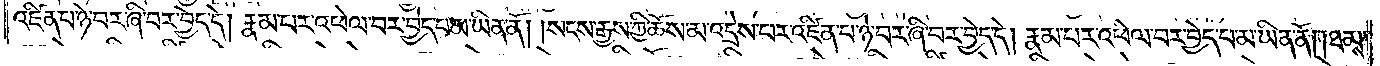འཛིན་པ་ཉེ་བར་ཞི་བར་བྱེད་དེ། རྣམ་པར་འཕེལ་བར་བྱེད་པ་མ་ཡིན་ནོ། །སངས་རྒྱས་ཀྱི་ཆོས་མ་འདྲེས་པར་འཛིན་པ་ཉེ་བར་ཞི་བར་བྱེད་དེ། རྣམ་པར་འཕེལ་བར་བྱེད་པ་མ་ཡིན་ནོ། །ཐམས་
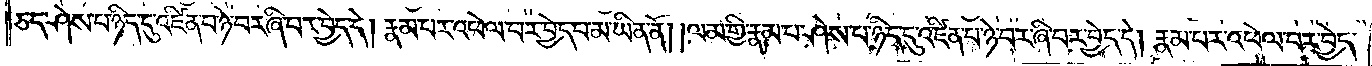ཅད་ཤེས་པ་ཉིད་དུ་འཛིན་པ་ཉེ་བར་ཞི་བར་བྱེད་དེ། རྣམ་པར་འཕེལ་བར་བྱེད་པ་མ་ཡིན་ནོ། །ལམ་གྱི་རྣམ་པ་ཤེས་པ་ཉིད་དུ་འཛིན་པ་ཉེ་བར་ཞི་བར་བྱེད་དེ། རྣམ་པར་འཕེལ་བར་བྱེད་
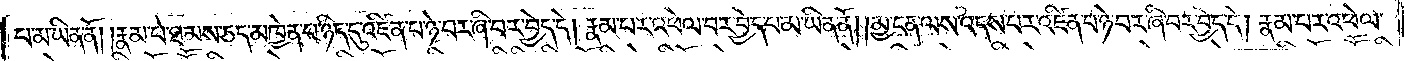པ་མ་ཡིན་ནོ། །རྣམ་པ་ཐམས་ཅད་མཁྱེན་པ་ཉིད་དུ་འཛིན་པ་ཉེ་བར་ཞི་བར་བྱེད་དེ། རྣམ་པར་འཕེལ་བར་བྱེད་པ་མ་ཡིན་ནོ། །མྱ་ངན་ལས་འདས་པར་འཛིན་པ་ཉེ་བར་ཞི་བར་བྱེད་དེ། རྣམ་པར་འཕེལ་
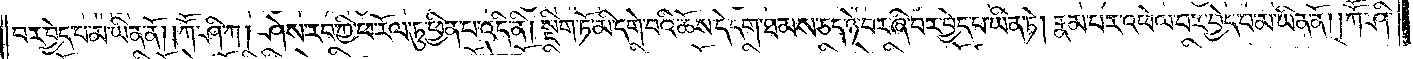བར་བྱེད་པ་མ་ཡིན་ནོ། །ཀཽ་ཤི་ཀ། ཤེས་རབ་ཀྱི་ཕ་རོལ་ཏུ་ཕྱིན་པ་འདི་ནི། སྡིག་ཏོ་མི་དགེ་བའི་ཆོས་དེ་དག་ཐམས་ཅད་ཉེ་བར་ཞི་བར་བྱེད་པ་ཡིན་ཏེ། རྣམ་པར་འཕེལ་བར་བྱེད་པ་མ་ཡིན་ནོ། །ཀཽ་ཤི་
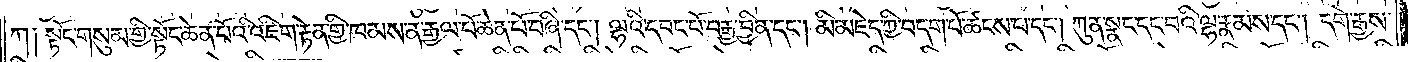ཀ། སྟོང་གསུམ་གྱི་སྟོང་ཆེན་པོའི་འཇིག་རྟེན་གྱི་ཁམས་ན་རྒྱལ་པོ་ཆེན་པོ་བཞི་དང༌། ལྷའི་དབང་པོ་བརྒྱ་བྱིན་དང༌། མི་མཇེད་ཀྱི་བདག་པོ་ཚངས་པ་དང༌། ཀུན་སྣང་དང་བའི་ལྷ་རྣམས་དང༌། དགེ་རྒྱས་
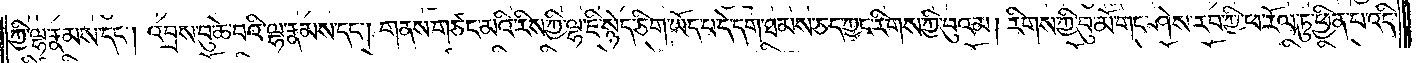ཀྱི་ལྷ་རྣམས་དང༌། འབྲས་བུ་ཆེ་བའི་ལྷ་རྣམས་དང༌། གནས་གཙང་མའི་རིས་ཀྱི་ལྷ་ཇི་སྙེད་ཅིག་ཡོད་པ་དེ་དག་ཐམས་ཅད་ཀྱང་རིགས་ཀྱི་བུའམ། རིགས་ཀྱི་བུ་མོ་གང་ཤེས་རབ་ཀྱི་ཕ་རོལ་ཏུ་ཕྱིན་པ་འདི་
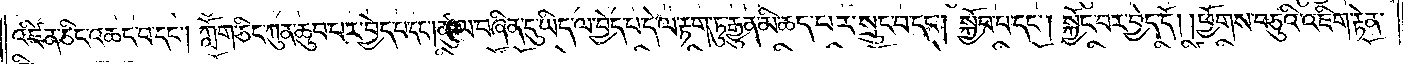འཛིན་ཅིང་འཆང་བ་དང༌། ཀློག་ཅིང་ཀུན་ཆུབ་པར་བྱེད་པ་དང༌། ཚུལ་བཞིན་དུ་ཡིད་ལ་བྱེད་པ་དེ་ལ་རྟག་ཏུ་རྒྱུན་མི་ཆད་པར་བསྲུང་བ་དང༌། སྐྱོབ་པ་དང༌། སྐྱོང་བ་བྱེད་དོ། །ཕྱོགས་བཅུའི་འཇིག་རྟེན་
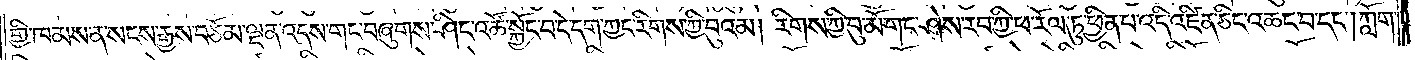གྱི་ཁམས་ན་སངས་རྒྱས་བཅོམ་ལྡན་འདས་གང་བཞུགས་ཤིང་འཚོ་སྐྱོང་བ་དེ་དག་ཀྱང་རིགས་ཀྱི་བུའམ། རིགས་ཀྱི་བུ་མོ་གང་ཤེས་རབ་ཀྱི་ཕ་རོལ་ཏུ་ཕྱིན་པ་འདི་འཛིན་ཅིང་འཆང་བ་དང༌། ཀློག་
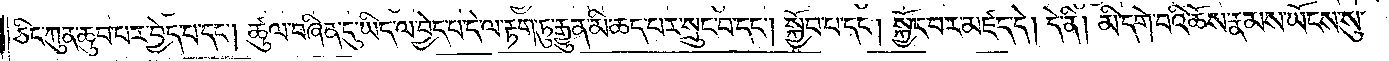ཅིང་ཀུན་ཆུབ་པར་བྱེད་པ་དང༌། ཚུལ་བཞིན་དུ་ཡིད་ལ་བྱེད་པ་དེ་ལ་རྟག་ཏུ་རྒྱུན་མི་ཆད་པར་བསྲུང་བ་དང༌། སྐྱོབ་པ་དང༌། སྐྱོང་བ་མཛད་དེ། དེ་ནི། མི་དགེ་བའི་ཆོས་རྣམས་ཡོངས་སུ་
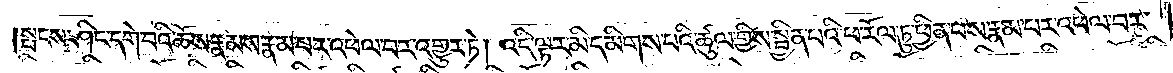སྤངས་ཤིང་དགེ་བའི་ཆོས་རྣམས་རྣམ་པར་འཕེལ་བར་འགྱུར་ཏེ། འདི་ལྟར་མི་དམིགས་པའི་ཚུལ་གྱིས་སྦྱིན་པའི་ཕ་རོལ་ཏུ་ཕྱིན་པས་རྣམ་པར་འཕེལ་བར་
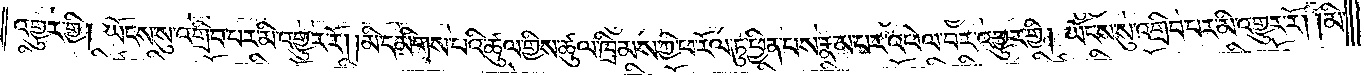འགྱུར་གྱི། ཡོངས་སུ་འགྲིབ་པར་མི་འགྱུར་རོ། །མི་དམིགས་པའི་ཚུལ་གྱིས། ཚུལ་ཁྲིམས་ཀྱི་ཕ་རོལ་ཏུ་ཕྱིན་པས་རྣམ་པར་འཕེལ་བར་འགྱུར་གྱི། ཡོངས་སུ་འགྲིབ་པར་མི་འགྱུར་རོ། །མི་
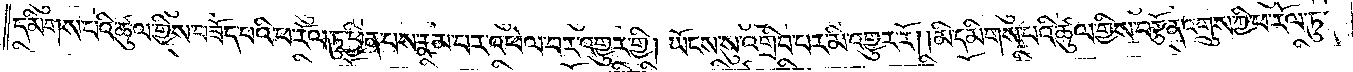དམིགས་པའི་ཚུལ་གྱིས་བཟོད་པའི་ཕ་རོལ་ཏུ་ཕྱིན་པས་རྣམ་པར་འཕེལ་བར་འགྱུར་གྱི། ཡོངས་སུ་འགྲིབ་པར་མི་འགྱུར་རོ། །མི་དམིགས་པའི་ཚུལ་གྱིས་བརྩོན་འགྲུས་ཀྱི་ཕ་རོལ་ཏུ་
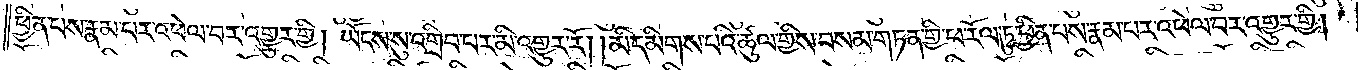ཕྱིན་པས་རྣམ་པར་འཕེལ་བར་འགྱུར་གྱི། ཡོངས་སུ་འགྲིབ་པར་མི་འགྱུར་རོ། །མི་དམིགས་པའི་ཚུལ་གྱིས་བསམ་གཏན་གྱི་ཕ་རོལ་ཏུ་ཕྱིན་པས་རྣམ་པར་འཕེལ་བར་འགྱུར་གྱི་
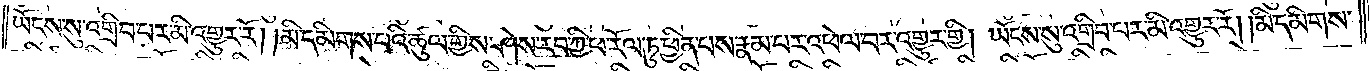ཡོངས་སུ་འགྲིབ་པར་མི་འགྱུར་རོ། །མི་དམིགས་པའི་ཚུལ་གྱིས་ཤེས་རབ་ཀྱི་ཕ་རོལ་ཏུ་ཕྱིན་པས་རྣམ་པར་འཕེལ་བར་འགྱུར་གྱི། ཡོངས་སུ་འགྲུབ་པར་མི་འགྱུར་རོ། །མི་དམིགས་
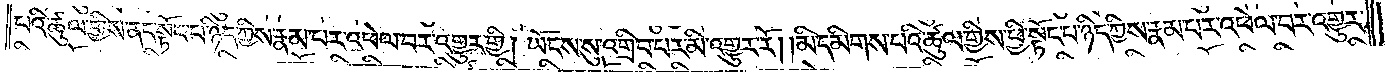པའི་ཚུལ་གྱིས་ནང་སྟོང་པ་ཉིད་ཀྱིས་རྣམ་པར་འཕེལ་བར་འགྱུར་གྱི། ཡོངས་སུ་འགྲིབ་པར་མི་འགྱུར་རོ། །མི་དམིགས་པའི་ཚུལ་གྱིས་ཕྱི་སྟོང་པ་ཉིད་ཀྱིས་རྣམ་པར་འཕེལ་བར་འགྱུར་
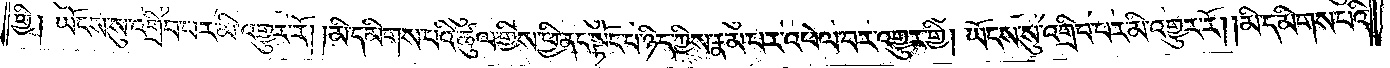གྱི། ཡོངས་སུ་འགྲིབ་པར་མི་འགྱུར་རོ། །མི་དམིགས་པའི་ཚུལ་གྱིས་ཕྱི་ནང་སྟོང་པ་ཉིད་ཀྱིས་རྣམ་པར་འཕེལ་བར་འགྱུར་གྱི། ཡོངས་སུ་འགྲིབ་པར་མི་འགྱུར་རོ། །མི་དམིགས་པའི་
